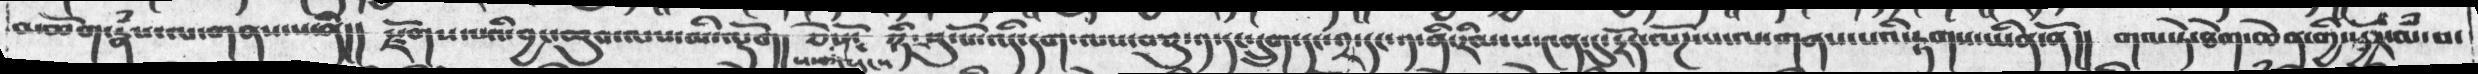མཆོག་རྣཾས་ལ་གནས་པ་ནི།།  རྫོགས་པའི་བྱང་ཆུབ་ལས་མི་ལྡོག།  ཅེསོ༴   ཉི་ཤུ་པོ་འདི་དག་ལས་བཅུ་༡་དང་དྲུག་དང་༢་དང་༡་ནི་རིམ་པ་༤ན་དུ་དྲོད་ལོཌ་པ་ལ་གནས་པའི་རྟོགས་ཡིན་ནོ།།  གལ་ཏེ་ཐེན་ཆེན་གྱི་སྦྱོར་ལཾ་པ་
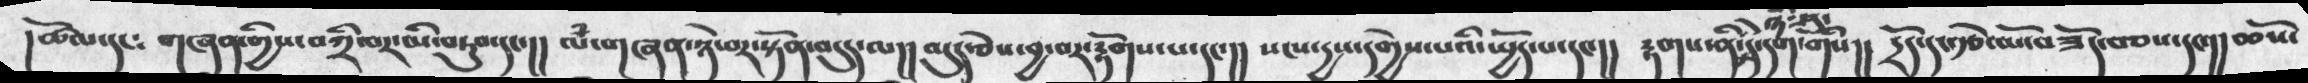།ཚོལ་དང༴   གཞན་གྱིས་བཀྲི་བར་མི་བཏུབ་དང་།།  ལཾ་གཞན་ཉེ་བར་སྟོན་བདུད་ལ།།  བདུད་ཅེས་བྱ་བར་རྟོགས་པ་དང་།།  སངས་དྱས་དགྱེས་པའི་སྤྱོད་པ་དང་།།  རྟགས་ནི་ཉི་ཤུ་དེ་དག་གིས།།  དྲོད་དང་རྩེ་མོ་བཟོད་བཅས་དང་།།  ཆོས་
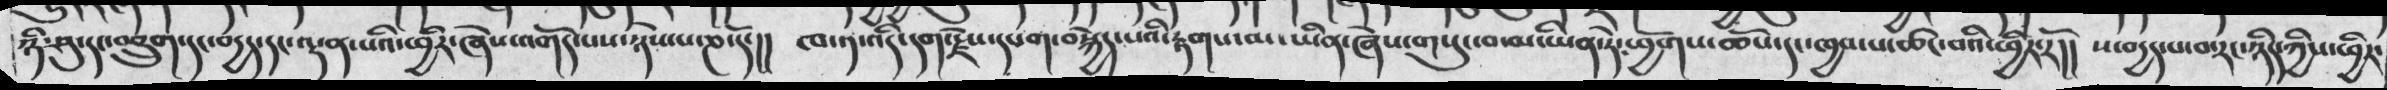ཉི་ཤུ་དང་བཅྲུག་དང་བདྱད་དང་ལྡན་པའི་ཕྱིར་ཞེས་འགོད་པས་ཉེས་པ་ཎ་དོ་།།  ཁ་༡་འདི་དག་རྗེས་དཔག་བསྐྱེད་པའི་རྟགས་མ་ཡིན་ཞེས་གསུང་བ་མ་ཡིན་ཏེ༴ཕྱོགས་ཆོས་དང་ཁྱབ་པ་ཚང་བའི་ཕྱིར་རོ།།   ས་བདྱད་པ་བ་རང་ཉིད་ཀྱིས་ཕྱིར་
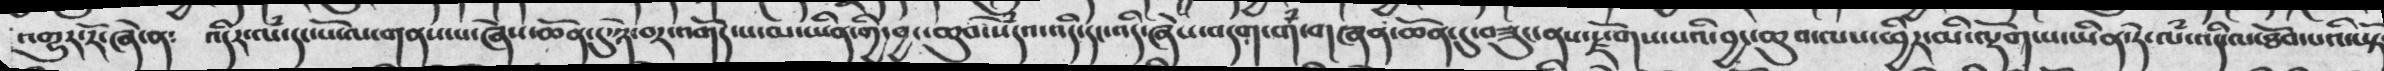འགྱུར་རོ་ཞེ་ན༴   འདིར་ལཾ་དང་པོ་ལ་གནས་པ་ཞེས་ཆོན་དུ་ཉེ་བར་འགོད་པ་མ་ཡིན་གྱི་བྱང་ཆུབ་སེཾདའ་འདི་རང་འདི་ཞེས་བདག་གཾ་གཞན་ཆོན་དུ་བཟུང་ནས་རྫོགས་པའི་བྱང་ཆུབ་ལས་ཕྱིར་མི་ལྡོག་པ་ཡིན་ཏེ་ལཾ་འདི་ལ་ཐོབ་པའི་ཡྟོ
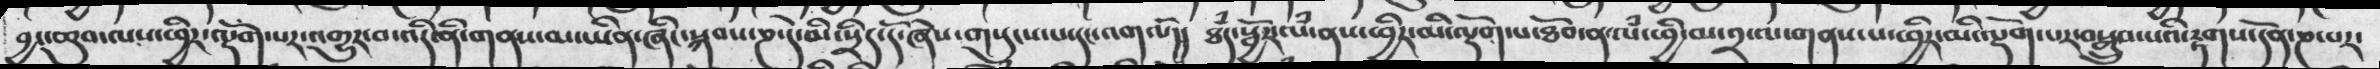བྱང་ཆུབ་ལས་ཕྱིར་ལྡོག་པར་འགྱུར་བ་འདི་ནི་གནས་མ་ཡིན་ཞིང་སྐབས་ཎ་དེ་མི་སྲིད་དོ་ཞེས་གསུངས་པ་རང་འགལོ།།   ཐཾད་སྦྱོར་ལཾ་ནས་ཕྱིར་མི་ལྡོག་པ་ཐོབ་ན་ལཾ་ཕྱི་མ་༢་ལ་གནས་པ་ཕྱིར་མི་ལྡོག་པར་བསྒྲུབ་པའི་རྟགས་དོན་ཎ་པར་
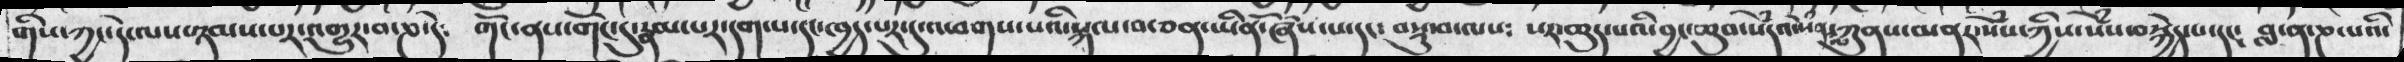གིས་ཀྱང་དེ་ལས་ཉམས་པར་འགྱུར་བ་ཎ་དེ༴  གོང་ནས་གོང་དུ་རྣམ་པར་དག་པ་དང་ཁྱད་པར་དུ་འཕགས་པའི་སྐལ་བ་ཅན་ཡིནོ་ཞེས་པ་དང༴  བསྡུ་བ་ལས༴  སར་ཆུད་པའི་བྱང་ཆུབ་སེཾདའ་སེཾན་ལ་ཀུནས་མནར་སེཾས་ཀྱིས་སེཾས་བསྐྱེད་པ་དང༴  བླ་ན་ཎ་པའི་
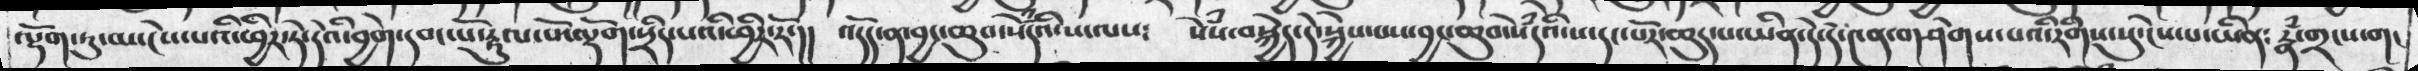ལྡོག་ཏུ་མ་ངེས་པའི་ཕྱིར་ཏེ་དེའི་བྱེག་དབང་པོ་རྟུལ་པོ་ལྡོག་སྲིད་པའི་ཕྱིར་རོ་།།  འདོད་ན་བྱང་ཆུབ་སེཾདའི་ས་ལས༴    སེཾས་བསྐྱེད་དེ་སྐྱེས་པས་བྱང་ཆུབ་སེཾདའི་ས་དང་པོར་ཆུད་པ་ཡིན་དེ་དེ་༤ན་གཤེགས་པའི་རིགས་སུ་ངེས་པ་ཡིན༴ རྣཾ་གྲངས་གང
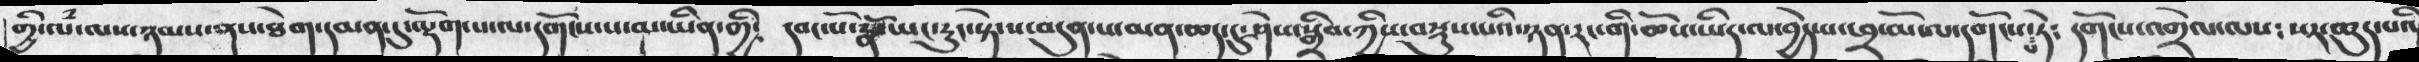གྱི་ལཾ་ལས་ཉམས་ནས་ཐེག་དམན་དུ་ལྡོག་པ་ལ་དགོངས་པ་མ་ཡིན་གྱི༴  དབང་པོ་རྣོ་ཡང་རུང་སྟེ་ས་བདུན་པ་མན་ཆད་དུ་ཤེས་སྒྲིབ་ཀྱིས་བསྡུས་པའི་ཉན་རང་གི་ཆོས་ཡིད་ལ་བྱེད་པ་ཕྲ་མོ་ལ་དགོངས་པ་ཏེ༴   དགོངས་འགྲེལ་ལས༴  སར་ཆུད་པའི
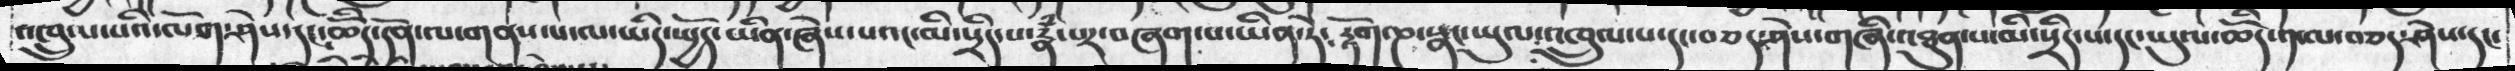འཁྲུལ་པའི་ལོག་ཤེས་དང་ཆོིད་དོན་ལ་གནས་པ་ལ་ཡིད་སྤྱོད་ཡིན་ཞེས་པའང་མི་སྲིད་པ་རྣཾ་པར་བཞག་པ་ཡིན་དེ༴  རྟོག་ཎ་སྣང་ཡུལ་འཁྲུལ་པ་དང་བཅད་ཤེས་གཞི་འཐུན་པ་མི་སྲིད་པ་དང་ཡུལ་ཆོད་༡་ལ་བཅད་ཤེས་དང་
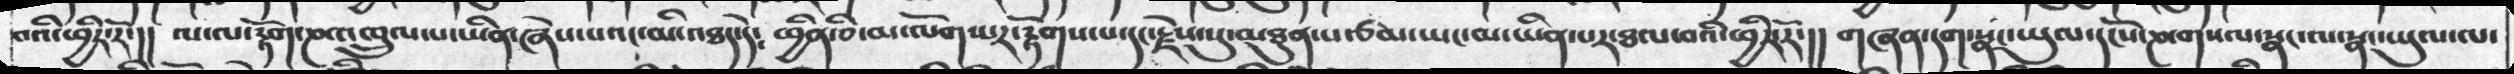བའི་ཕྱིར་རོ་།།  ལ་ལ་རྟོག་ཎ་འཁྲུལ་པ་ཡིན་ཞེས་པའང་མི་འཐད་དེ༴  ཕྱིན་ཅི་མ་ལོག་པར་རྟོགས་པ་དང་རྗེས་སུ་མཐུན་པ་ཙམ་ཡང་མ་ཡིན་པར་ཐལ་བའི་ཕྱིར་རོ་།།  གཞན་དག་སྣང་ཡུལ་དངོས་ཎ་གསལ་སྣང་ལ་སྣང་ཡུལ་ལ་
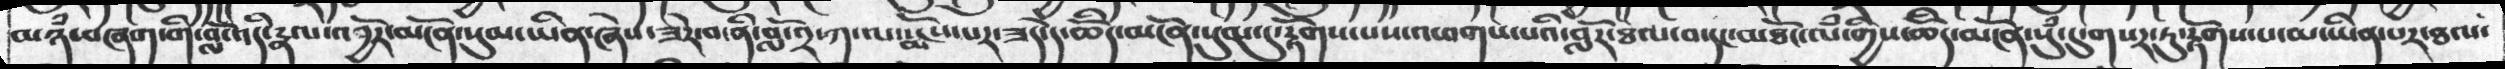མཉཾ་བཞག་བློ་འདི་རྣལ་འབྱོར་མངོན་སུམ་ཡིན་ཞེས་ཟེར་བ་ནི་བློ་༢་ཀ་ལ་རྨོངས་པར་ཟད་དེ་ཆོིད་མངོན་སུམ་དུ་རྟོགས་པས་འཕགས་པའི་བློར་ཐལ་བ་དང་མཐོང་ལཾ་གྱིས་ཆོིད་མངོན་སུཾ་དུ་གསར་ཏུ་རྟོགས་པ་མ་ཡིན་པར་ཐལ་
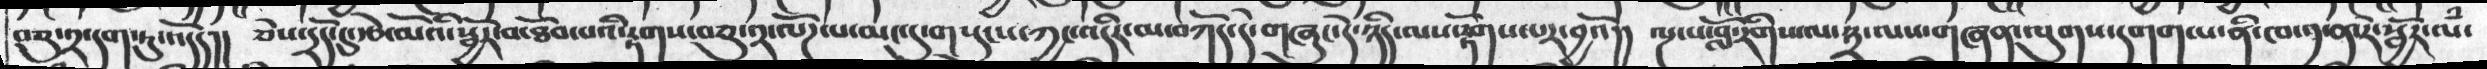བཅུ་༢་དག་རུ་འདོད།།    ཅེས་དྲོད་དུ་རྩེ་མོའི་སྦྱོར་བ་ཐོབ་པའི་རྟགས་བཅུ་༢་ལོཌ་པ་མང་དུ་གསུངས་ཀྱང་འདིར་མ་བཀོད་དེ་གཞུང་དེ་ཉིད་ལས་རྟོགས་པར་བྱའོ།།  ལྔ་པ་བློ་རིགས་ལ་༣་ལས་བཞན་ལུགས་དགག་པ་ནི་ཁ་༡་ན་རེ་སྦྱོར་ལཾ་
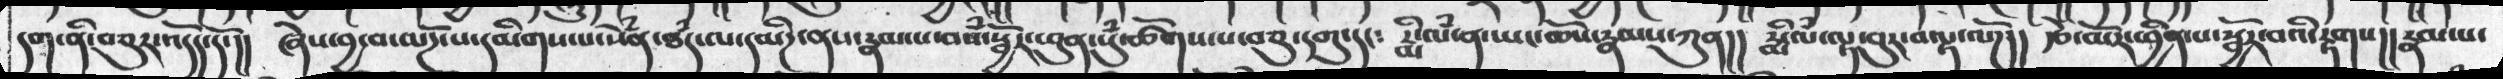དག་ནི་བཅུར་འདོད་དོ་།།  ཞེས་བྱ་བ་ལོཌ་པ་དམིགས་པ་སེཾན་ཐཾད་ལ་དམིཌ་ནས་རྣམ་པ་བསཾ་སྦྱོར་ཕུན་སུཾ་ཚོགས་པ་བཅུ་དགུ་དང༴  རྨི་ལཾ་ན་ཡང་ཆོས་རྣམས་ཀུན།།  རྨི་ལཾ་ལྟ་བུར་བལྟ་ལོཌ།།  རྩེ་མོར་ཕྱིན་པ་སྦྱོར་བའི་རྟགས།།  རྣམ་པ་
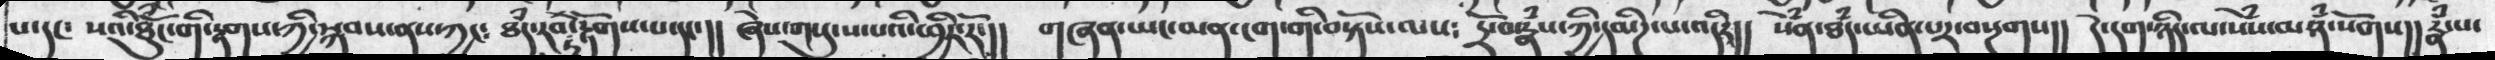པ་དང་  སའི་ཐོུཾང་གི་རྟགས་ཀྱི་སྐབས་ནས་ཀྱང༴  ཐཾད་རབ་ཏུ་རྟོགས་པ་དང་།།  ཞེས་གསུངས་པའི་ཕྱིར་རོ་།།   གཞན་ཡང་མན་ངག་གི་བསྟོས་ལས༴   དྲོ་བ་རྣཾས་ཀྱི་དམིཌ་པ་འདིར།།  སེཾན་ཐཾད་ཡིན་པར་བསྔགས།།  དེ་དག་ཉིད་ལ་སེཾས་མཉཾ་སོགས།།  རྣཾ་པ་
